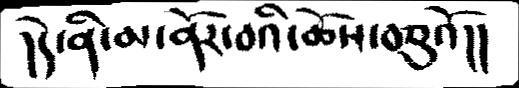།དེ་ནི་མ་ནོར་བའི་ཆོས་བཅུའོ།།
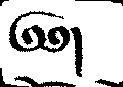༄༅།
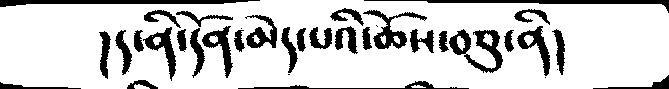།ད་ནི་དོན་མེད་པའི་ཆོས་བཅུ་ནི།
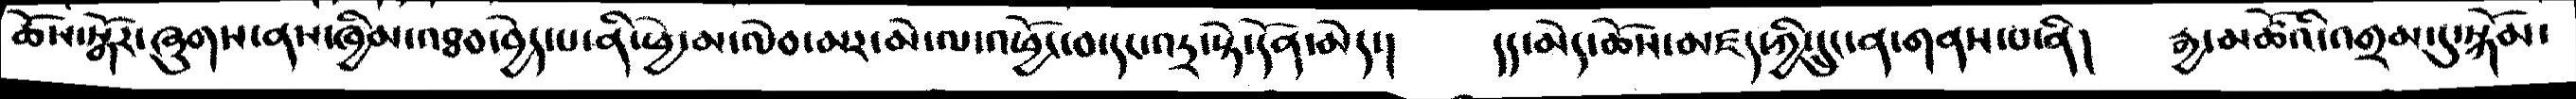ཆོས་སྒོར་ཞུགས་ནས་ཁྱིམ་འཐབ་བྱེད་པ་ནི་ཕྱེ་མ་ལེབ་མར་མེ་ལ་འཕྱོང་བ་དང་འདྲ་སྟེ་དོན་མེད་།  དད་མེད་ཆོས་མཛད་ཀྱི་དྲུང་ན་གནས་པ་ནི།  རྒྱ་མཚོའི་འགྲམ་དུ་སྐོམ་
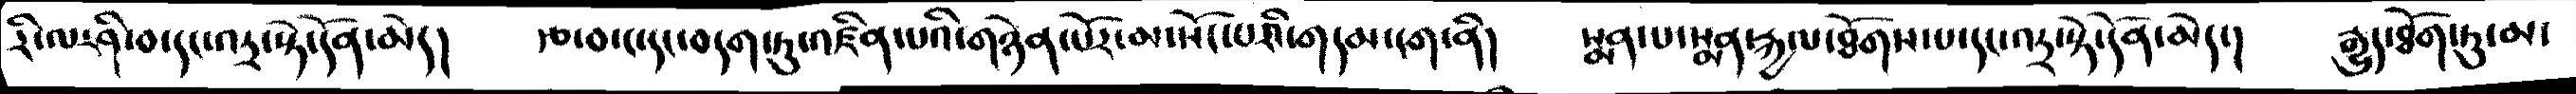རི་ལ་ཤི་བ་དང་འདྲ་སྟེ་དོན་མེད།  རྩ་བ་ང་རང་བདག་ཏུ་འཛིན་པའི་གཉེན་པོར་མ་སོང་པའི་གདམ་ངག་ནི།  སྨན་པ་སྨན་རྐྱལ་ཐོགས་པ་དང་འདྲ་སྟེ་དོན་མེད་།  རྒྱུ་ཐོག་ཏུ་མ་
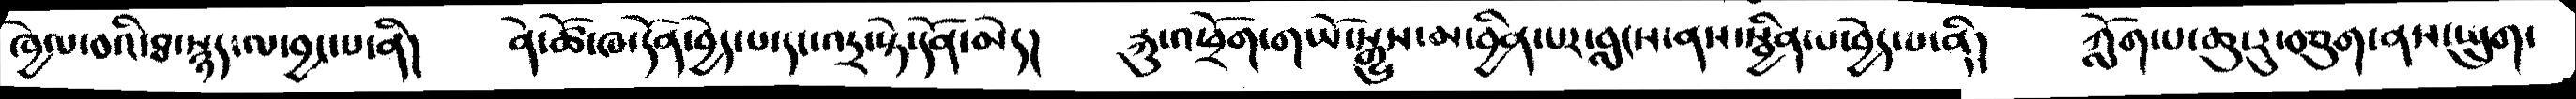ཁྱེལ་བའི་ཐ་སྙད་ལ་བྱང་པ་ནི།  ནེ་ཚོ་ཁ་དོན་བྱེད་པ་དང་འདྲ་སྟེ་དོན་མེད།  རྐུ་འཕྲོག་གཡོ་སྒྱུས་མ་བྱེན་པར་བླངས་ནས་སྦྱིན་པ་བྱེད་པ་ནི།  ཀློག་པ་ཆུ་རུ་བཅུག་ནས་སྤྲུག་
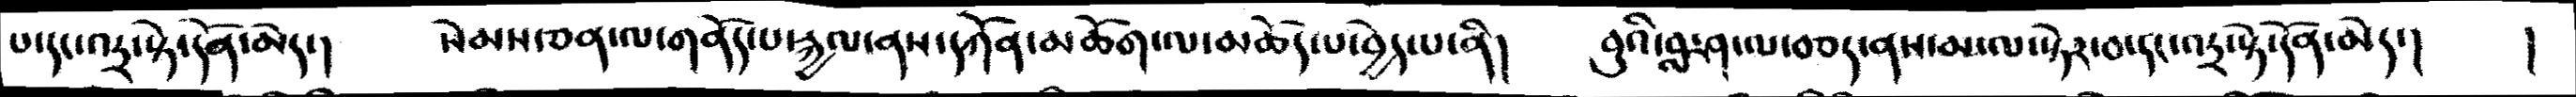པ་དང་འདྲ་སྟེ་དོན་མེད་།  སེམས་ཅན་ལ་གནོད་པ་རྐྱལ་ནས་དཀོན་མཆོག་ལ་མཆོད་པ་བྱེད་པ་ནི།  བུའི་བླ་ཤ་ལ་བཅད་ནས་མ་ལ་སྟེར་བ་དང་འདྲ་སྟེ་དོན་མེད་།   །
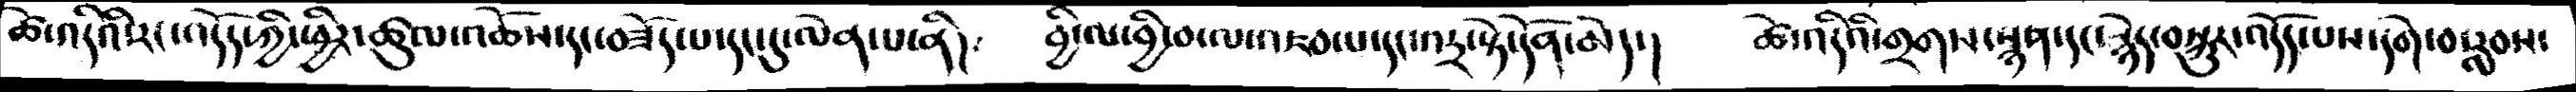ཚེ་འདིར་རང་འདོད་ཀྱི་ཕྱིར་ཚུལ་འཆོས་དང་བཟོད་པ་དང་དུ་ལེན་པ་ནི།   བྱི་ལ་བྱི་བ་ལ་འཇབ་པ་དང་འདྲ་སྟེ་དོན་མེད་།  ཚེ་འདིའི་གྲགས་སྙན་དང་སྙེད་བསྐུར་འདོད་པས་དགེ་བ་རླབས་
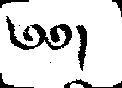༄༅།
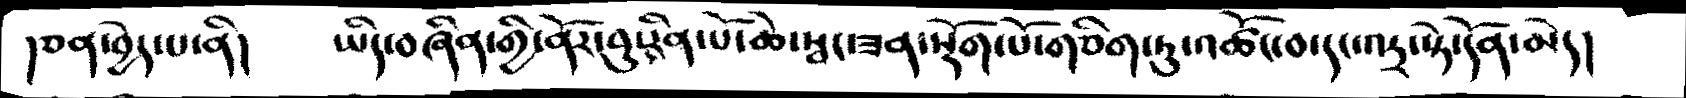།ཅན་བྱེད་པ་ནི།  ཡིད་བཞིན་གྱི་ནོར་བུ་རིན་པོ་ཆེ་སྦང་ཟན་སྡོག་པོ་གཅིག་ཏུ་འཚོང་བ་དང་འདྲ་སྟེ་དོན་མེད།
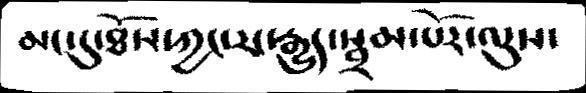མང་དུ་ཐོས་ཀྱང་རང་རྒྱུད་སྦྲམ་པོར་འདུས་
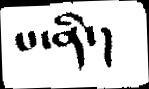པ་ནི་།
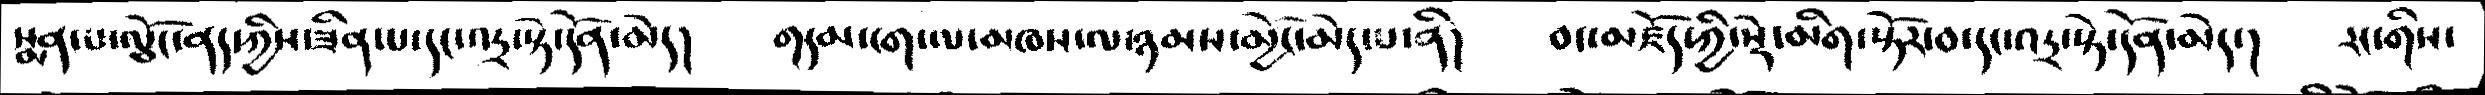སྨན་པ་ལྕོང་ནད་ཀྱིས་ཟིན་པ་དང་འདྲ་སྟེ་དོན་མེད།  གདམ་ངག་ལ་མཁས་ལ་ཉམས་མྱོང་མེད་པ་ནི།  བང་མཛོད་ཀྱི་སྡེ་མིག་སྟོར་བ་དང་འདྲ་སྟེ་དོན་མེད་།  རང་གིས་
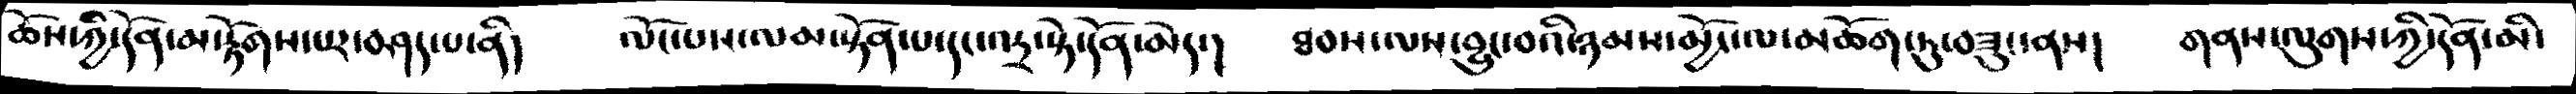ཆོས་ཀྱི་དོན་མ་རྟོགས་པར་བཤད་པ་ནི།  ལོང་པས་ལམ་སྟོན་པ་དང་འདྲ་སྟེ་དོན་མེད་།  ཐབས་ལས་བྱུང་བའི་ཉམས་མྱོང་ལ་མཆོག་ཏུ་བཟུང་ནས།  གནས་ལུགས་ཀྱི་དོན་མི་
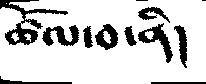ཚོལ་བ་ནི།
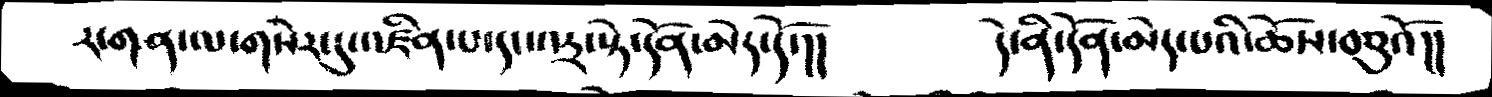ར་གན་ལ་གསེར་དུ་འཛིན་པ་དང་འདྲ་སྟེ་དོན་མེད་དོ་།།   དེ་ནི་དོན་མེད་པའི་ཆོས་བཅུའོ།།
